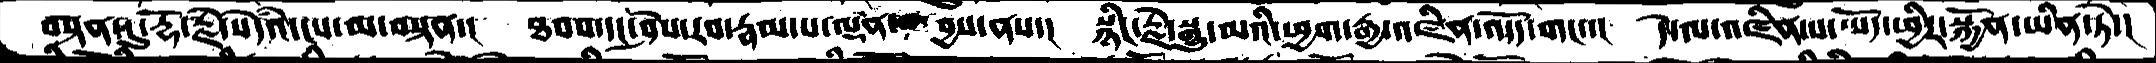བསྟན་དུ་རྡོ་རྗེ་སེདཾའ་ངས་མ་བསྟན་།   ཐབས་དང་ཤེས་རབ་རྣམ་པ་ལྡན་བྱས་ནས་།  སྙིང་རྗེ་སྒྱུ་མའི་ཕྱག་རྒྱ་འཛིན་འདོད་གང་་།  དེ་ལ་འཛིན་པ་ཡོད་ཕྱིར་སྐྱོན་ཡིན་ཏེ་།
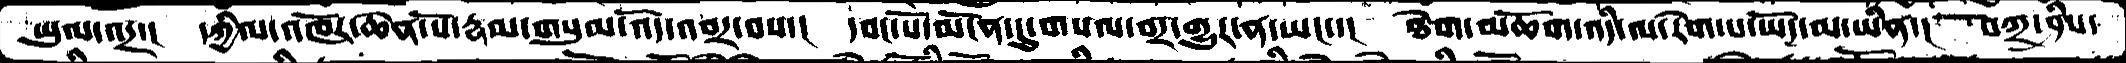ཡུལ་འདྲ་།  དཀྱིལ་འཁོར་ཆེན་པོ་རྣམ་གསུམ་འོད་འབར་བས་།  དབང་པོ་མངོན་དུ་གསལ་བར་གྱུར་ན་ཡང་་།  ཐེག་མཆོག་འདི་ལ་རེག་པ་ཡོད་མ་ཡིན་།  བཀྲ་ཤིས་
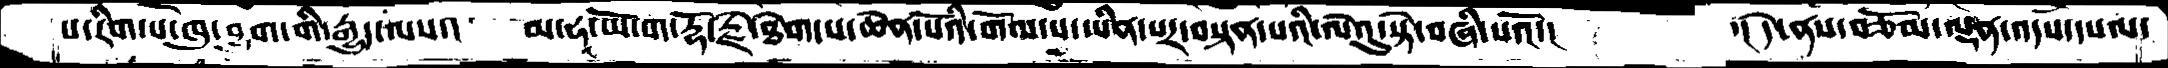པ་རིག་པ་ཁུ་བྱུག་གི་རྒྱུད་ལས་།  མ་ཧཱ་ཡོ་ག་རྡོ་རྗེ་ཐེག་པ་ཆེན་པོའི་གོལ་ས་ཡིན་པར་བསྟན་པའི་ལེའུ་སྟེ་བཞི་པའོ་།     ་།དེ་ནས་བཅོམ་ལྡན་འདས་དཔལ་
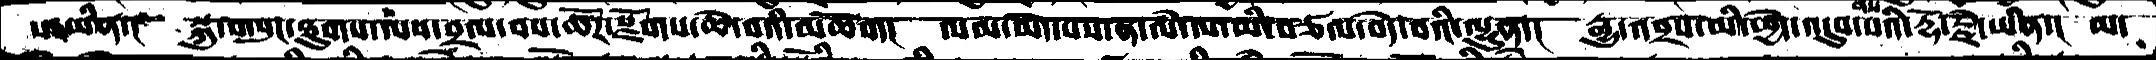པ་ཡིན་།  སྐུ་གསུང་ཐུགས་ལས་བྲལ་བས་ཚོཌ་སྫོགས་ཆེ་བའི་མཆོག།  ལན་མེད་པས་ན་ལཾ་ལ་མི་བཙལ་བདེ་བའི་ལྷུན་།  རྒྱུ་འབྲས་མི་ཕྱེད་འདུས་པའི་རྡོ་རྗེ་ཡིན་།  མ་
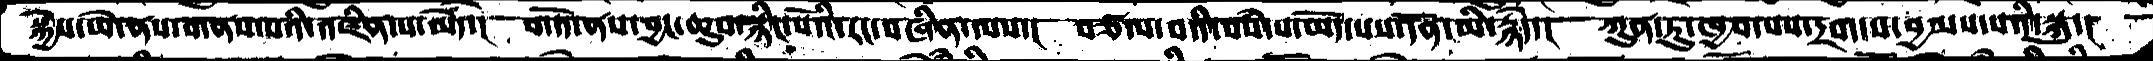སྐྱེས་ཡེ་ནས་གནས་པའི་འཛིན་པ་མེད་།  གདོད་ནས་བྱང་ཆུབ་སྙིང་པོའི་རང་བཞིན་ལས་།  བཙལ་བའི་བསཾ་པ་ཡོད་པས་དོན་མི་རྙེད་།  ཀུན་ཏུ་ཁྱབ་པས་དྲག་པ་བྱམས་པའི་སྐུ་།
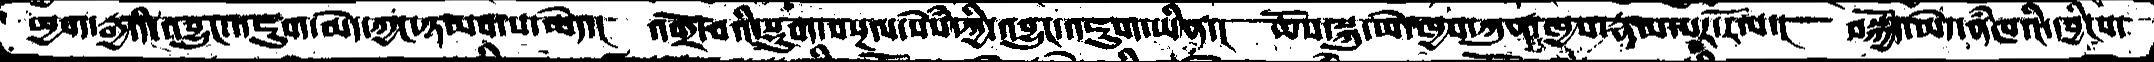ཕྱག་རྒྱའི་འབྱུང་འཇུག་མེད་ཀྱང་ཉམས་པ་མེད་།  འགྲོ་བའི་སྡུག་བསྔལ་སེཾས་ཀྱི་འབྱུང་འཇུག་ཡིན་།  ཆོས་སྐུ་ཡེ་ཁྱབ་ཀུན་ཁྱབ་རྣམ་པར་རོལ་།  བསྐྱོད་མེད་ནཾཁའི་དབྱིངས་
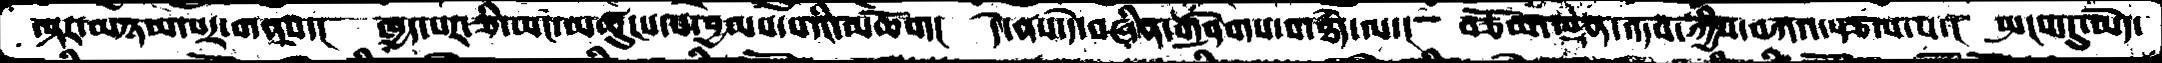ལྟར་མཉམ་པར་གནས་།  ཁྱད་པར་ཅི་ཡང་མཚུངས་བ་བྱམས་པའི་མཆོག།  དེ་ནས་དེ་བཞིན་གཤེགས་པ་ཐཾད་ལ་།  བཅོམ་ལྡན་འདས་ཀྱིས་བཀའ་སྩལ་པ་།  སྤངས་དུ་མེད་
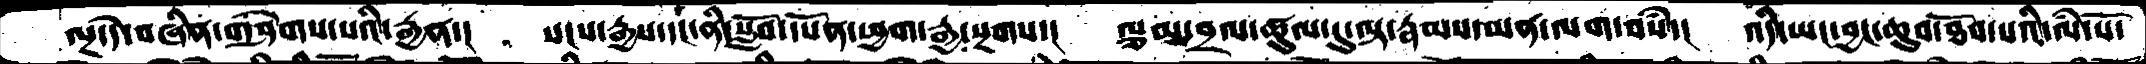ལྔ་དེ་བཞིན་གཤེགས་པའི་རྒྱན་།  སངས་རྒྱས་དང་ནི་སློབ་དཔོན་ཕྱག་རྒྱ་སྔགས་།  ལྕམ་བྲལ་ཚུལ་དུ་ལྟ་རྣམས་ཡན་ལག་བསཾ་།  འདི་ཡང་བྱང་ཆུབ་ཐོབ་པའི་ལཾ་པོ་
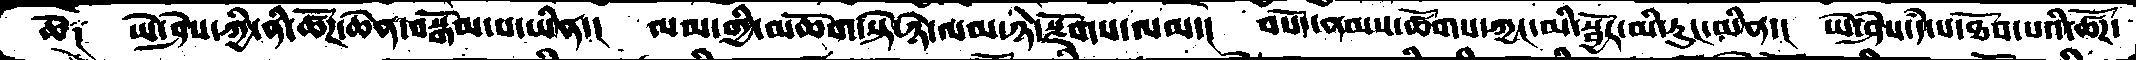ཆེᨐ  ཡེ་ཤེས་ཀྱི་ནི་ཚོཌ་ཆེན་བསྒོམ་པ་ཡིན་།  ལམ་གྱི་མཆོག་སྟེ་ཉེ་ལམ་ཉེ་སྫོགས་ལམ་།  བསོད་ནམས་ཚོགས་ཀྱང་མི་སྦྱོར་མི་རུང་མིན་།  ཡེ་ཤེས་དཾ་པ་ཐོབ་པའི་ཚོཌ་
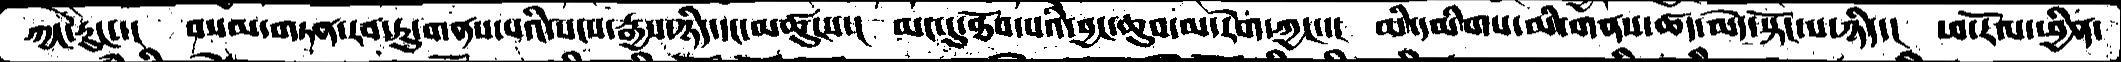ཀྱང་རུང་།  བསམ་གཏན་རབ་ཏུ་གནས་པའི་སངས་རྒྱས་ཉིད་དང་མཚུངས་།  མང་དུ་ཐོས་པའི་བྱང་ཆུབ་མ་རེག་ཀྱང་་།  མི་དམིགས་མི་གནས་ཚད་མེད་སྟོང་པ་ཉིད་།  ཕ་རོལ་ཕྱིན་
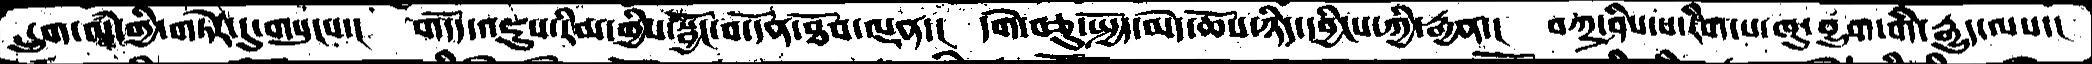དྲུག་ལཾཾ་གྱི་གཏེར་དུ་གསུངས་།  གདོད་འཇུས་རིམ་གྱིས་སྦྱོང་བ་དོན་ཐོབ་ལྡན་།  དགེ་བཅུ་སྤྱོད་མེད་ཆོས་ཉིད་དབྱིངས་ཀྱི་རྒྱན་།  བཀྲ་ཤིས་པ་རིག་པ་ཁུ་བྱུག་གི་རྒྱུད་ལས་།
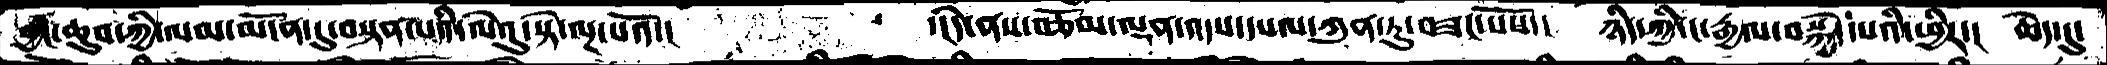བྱང་ཆུབ་ཀྱི་ལམ་མངོན་དུ་བསྟན་པའི་ལེའུ་སྟེ་ལྔ་པའོ་།  དངདེ་ནས་བཅོམ་ལྡན་འདས་དཔལ་ཀུན་ཏུ་བཟང་པོས་། ཉིད་ཀྱི་ང་རྒྱལ་བསྐྱེད་པའི་ཕྱིར་། ཆེད་དུ་
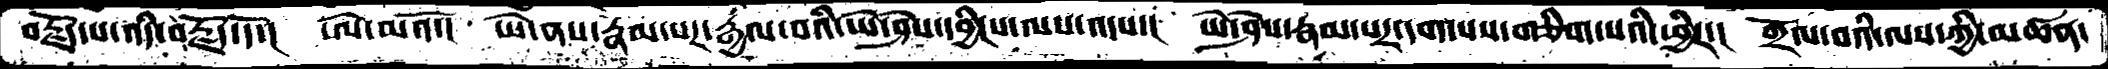བརྗོད་པ་འདི་བརྗོད་དོ་།  ཨེ་མའོ་།  ཡེ་ནས་རྣམ་པར་རྒྱལ་བའི་ཡེ་ཤེས་དབྱིངས་ལས་འདས་།  ཡེ་ཤེས་རྣམ་པར་དག་པས་གཅིག་པའི་ཕྱིར་།  གྲོལ་བའི་ལས་ཀྱི་མཚན་
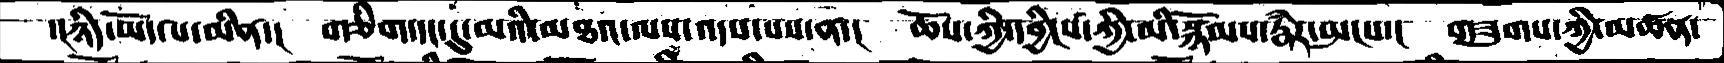་།ཉིད་ཡོད་པ་མིན་།  གཅིག་དང་དུ་མའི་མཐའ་ལས་འདས་པས་ན་།  ཆོས་ཀྱི་དབྱིངས་ཀྱི་མི་སྙོམས་རྣཾར་སྤངས་།  གཟུགས་ཀྱི་མཚན་
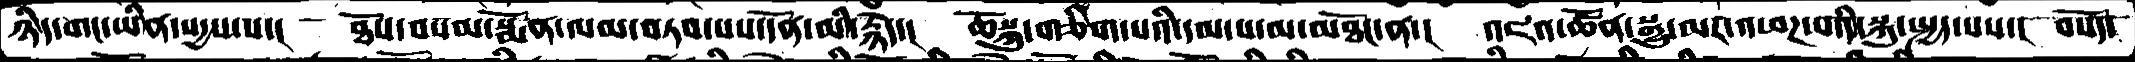ཉིད་གང་ཡིན་སདྱས་པ་།   ཐོས་བསམ་སྨོན་ལམ་བཏབ་པས་དོནམི་རྙེད་།   ཆོསྐུ་གཅིག་པའི་དམ་པ་མ་མཐོང་ན་།   འཇའ་ཚོན་སྒྱུ་མར་འཕཌ་པའི་སྐུ་སྤྱད་པས་།  བསོད་
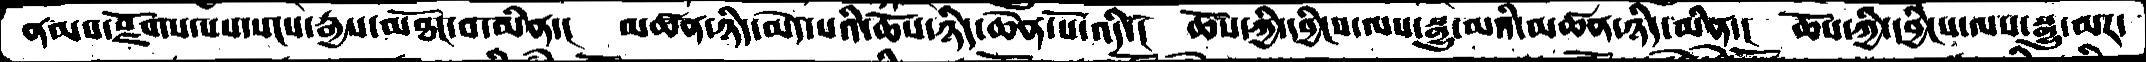ནམས་སྫོགས་པས་སངས་རྒྱས་མཐོང་བ་མིན་།   མཚན་ཉིད་མེད་པའི་ཆོས་ཉིད་ཆེན་པོ་འདི་།   ཆོས་ཀྱི་དབྱིངས་ལས་སྒྱུ་མའི་མཚན་ཉིད་མིན་།   ཆོས་ཀྱི་དབྱིངས་ལས་སྒྱུ་མར་
